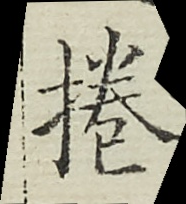捲
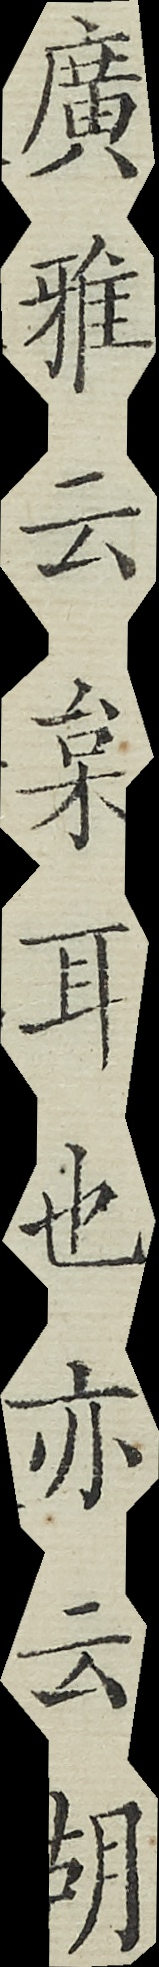廣雅雲枲耳也亦云胡
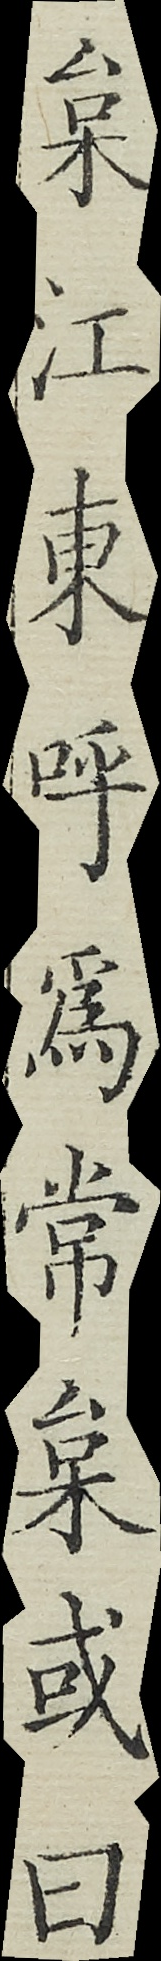枲江東呼爲常枲或曰
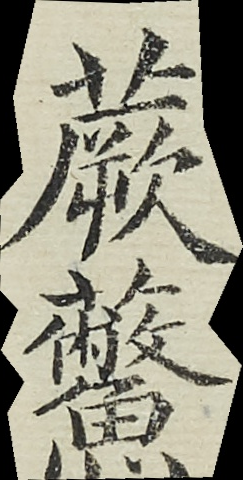蕨{艸鱉}
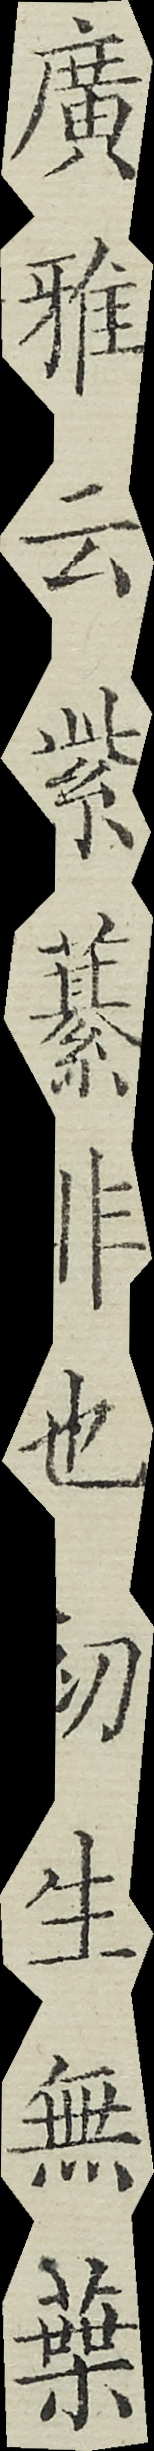廣雅云紫藄非也初生無葉
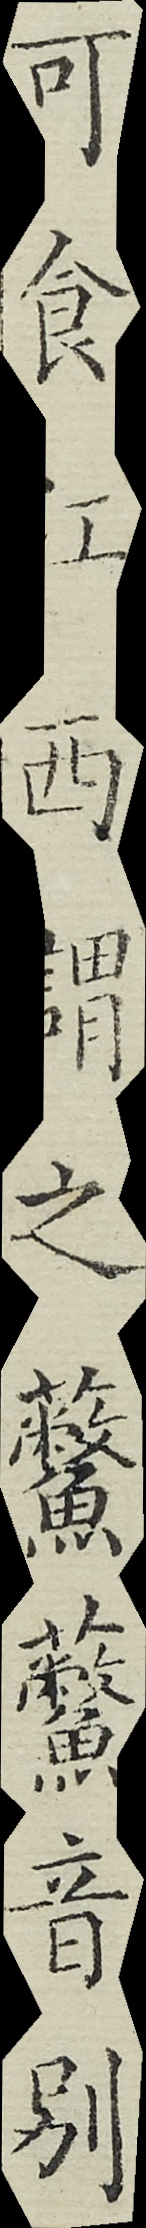可食江西謂之{艸鱉}{艸鱉}音別
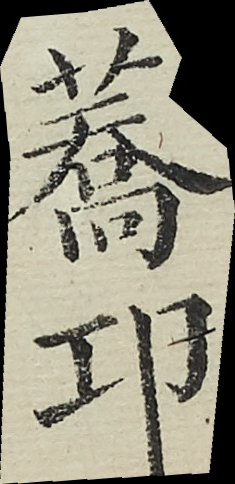蕎邛
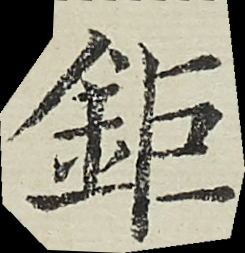钜
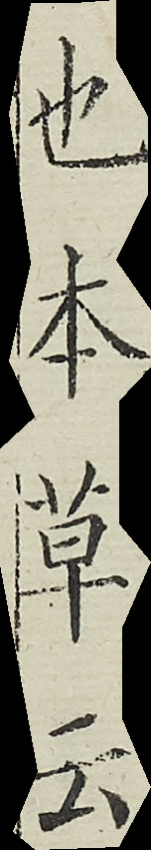也本草雲
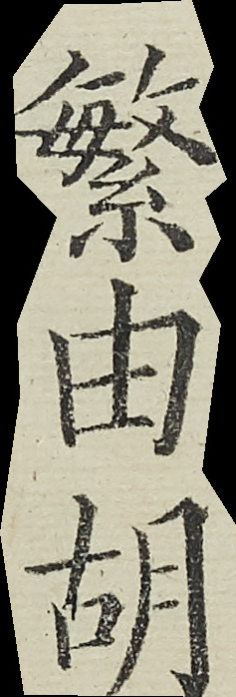繁由胡
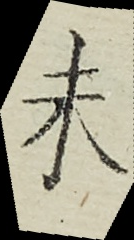未
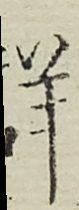詳
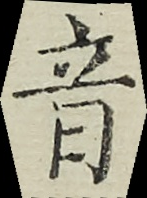音
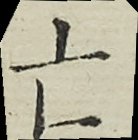亡
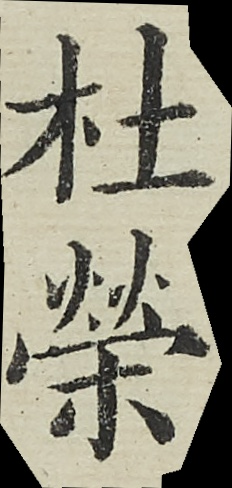杜榮
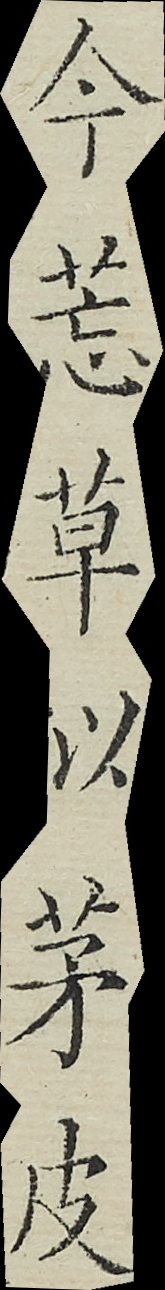今莣草似茅皮
